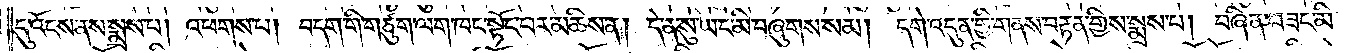དུ་འོངས་ནས་སྨྲས་པ། འཕགས་པ། བདག་གི་གཙུག་ལག་ཁང་སྟོང་པར་མཆིས་ན། དེ་ན་སུ་ཡང་མི་བཞུགས་སམ། དགེ་འདུན་གྱི་གནས་བརྟན་གྱིས་སྨྲས་པ། བཞིན་བཟང་མི་
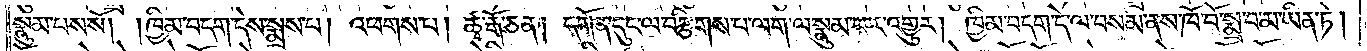སྣུམ་པས་སོ། །ཁྱིམ་བདག་དེས་སྨྲས་པ། འཕགས་པ། ཚྭ་རྒོ་ཅན། དགོན་དུང་ལ་བརྩིགས་པ་ལག་ལ་སྣུམ་པར་འགྱུར། ཁྱིམ་བདག་དེ་ལ་བསམ་ནས་ཁོ་བོ་སྨྲ་བ་མ་ཡིན་ཏེ།
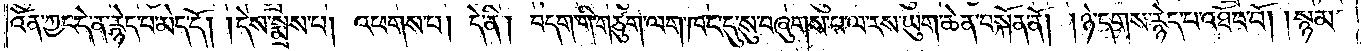འོན་ཀྱང་དེ་ན་རྙེད་པ་མེད་དོ། །དེས་སྨྲས་པ། འཕགས་པ། དེ་ནི། བདག་གི་གཙུག་ལག་ཁང་དུ་སུ་བཞུགས་པ་ལ་རས་ཡུག་ཆེན་བསྐོན་ནོ། །ཉེ་དགས་རྙེད་པ་འཐོབ་བོ། །སྙམ་
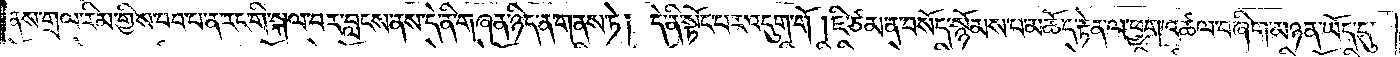ནས་གྲལ་རིམ་གྱིས་བབ་པ་ན་རང་གི་སྐལ་བར་བླངས་ནས་དེ་ནི་གཞན་ཉིད་ན་གནས་ཏེ། དེ་ནི་སྟོང་པར་འདུག་གོ། ཇི་ཙམ་ན་བསོད་སྙོམས་པ་མཆོད་རྟེན་ལ་ཕྱག་འཚལ་བ་ཞིག་མཉན་ཡོད་དུ་
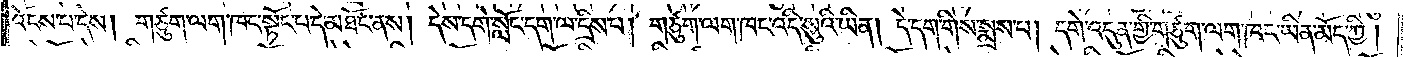འོངས་པ་དེས། གཙུག་ལག་ཁང་སྟོང་པ་དེ་མཐོང་ནས། དེས་དགེ་སློང་དག་ལ་དྲིས་པ། གཙུག་ལག་ཁང་འདི་སུའི་ཡིན། དེ་དག་གིས་སྨྲས་པ། དགེ་འདུན་གྱི་གཙུག་ལག་ཁང་ཡིན་མོད་ཀྱི།
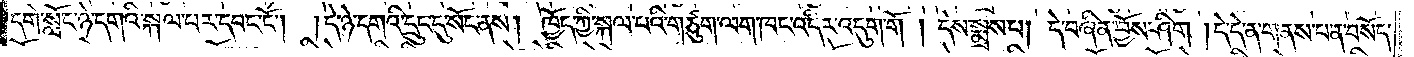དགེ་སློང་ཉེ་དགའི་སྐལ་པར་དབང་ངོ༌། །དེ་ཉེ་དགའི་དྲུང་དུ་སོང་ནས། ཁྱོད་ཀྱི་སྐལ་པའི་གཙུག་ལག་ཁང་འདིར་འདུག་གོ །དེས་སྨྲས་པ། དེ་བཞིན་བྱོས་ཤིག །དེ་དེ་ན་གནས་པ་ན་བསོད་
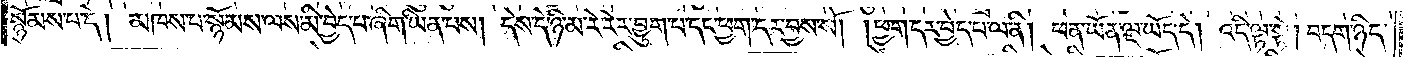སྙོམས་པ་དེ། མཁས་པ་སྙོམས་ལས་མི་བྱེད་པ་ཞིག་ཡིན་པས། དེས་དེ་ཉི་མ་རེ་རེར་བྱུག་པ་དང་ཕྱག་དར་བྱས་སོ། །ཕྱག་དར་བྱེད་པ་ལ་ནི། ཕན་ཡོན་ལྔ་ཡོད་དེ། འདི་ལྟ་སྟེ། བདག་ཉིད་
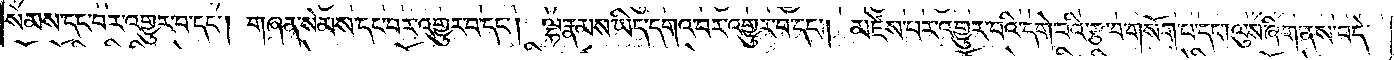སེམས་དང་བར་འགྱུར་བ་དང༌། གཞན་སེམས་དང་པར་འགྱུར་བ་དང༌། ལྷ་རྣམས་ཡིད་དགའ་བར་འགྱུར་བ་དང༌། མཛེས་པར་འགྱུར་བའི་དགེ་བའི་རྩ་བ་གསོག་པ་དང༌། ལུས་ཞིག་ནས་བདེ་
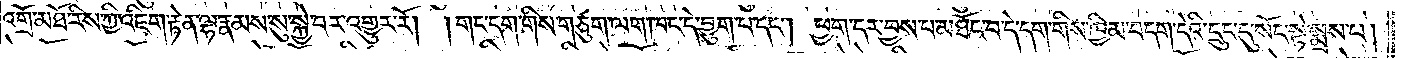འགྲོ་མཐོ་རིས་ཀྱི་འཇིག་རྟེན་ལྷ་རྣམས་སུ་སྐྱེ་བར་འགྱུར་རོ། །གང་དག་གིས་གཙུག་ལག་ཁང་དེ་བྱུག་པ་དང༌། ཕྱག་དར་བྱས་པ་མཐོང་བ་དེ་དག་གིས་ཁྱིམ་བདག་དེའི་དྲུང་དུ་སོང་སྟེ་སྨྲས་པ།
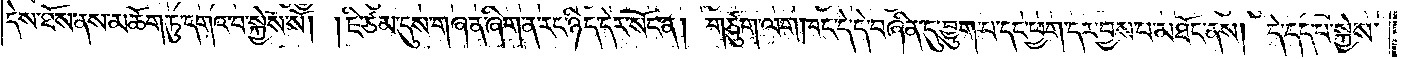དེས་ཐོས་ནས་མཆོག་ཏུ་དགའ་བ་སྐྱེས་སོ། །ཇི་ཙམ་དུས་གཞན་ཞིག་ན་རང་ཉིད་དེར་སོང་ན། གཙུག་ལག་ཁང་དེ་དེ་བཞིན་དུ་བྱུག་པ་དང་ཕྱག་དར་བྱས་པ་མཐོང་ནས། དེ་དད་པ་སྐྱེས་
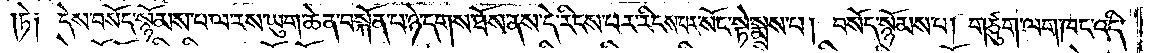།ཏེ༑ དེས་བསོད་སྙོམས་པ་ལ་རས་ཡུག་ཆེན་བསྐོན་པ་ཉེ་དགས་ཐོས་ནས་དེ་རིངས་པར་རིངས་པར་སོང་སྟེ་སྨྲས་པ། བསོད་སྙོམས་པ། གཙུག་ལག་ཁང་འདི་
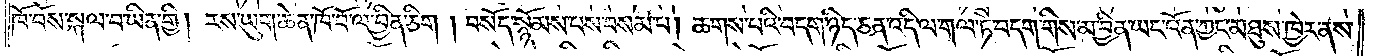ཁོ་བོས་སྐལ་བ་ཡིན་གྱི། རས་ཡུག་ཆེན་ཁོ་བོ་ལ་བྱིན་ཅིག །བསོད་སྙོམས་པས་བསམ་པ། ཆགས་པའི་བདག་ཉིད་ཅན་འདི་ལ་གལ་ཏེ་བདག་གིས་མ་བྱིན་ཡང་འོན་ཀྱང་མཐུས་ཁྱེར་ནས་
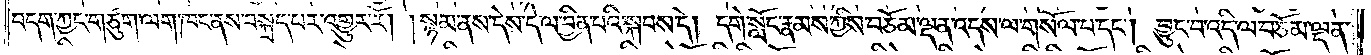བདག་ཀྱང་གཙུག་ལག་ཁང་ནས་བསྐྲད་པར་འགྱུར་རོ། །སྙམ་ནས་དེས་དེ་ལ་བྱིན་པའི་སྐབས་དེ། དགེ་སློང་རྣམས་ཀྱིས་བཅོམ་ལྡན་འདས་ལ་གསོལ་པ་དང༌། བྱུང་བ་འདི་ལ་བཅོམ་ལྡན་
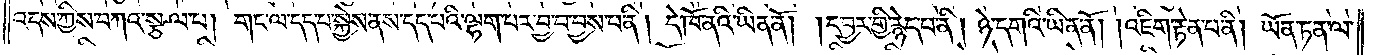འདས་ཀྱིས་བཀའ་སྩལ་པ། གང་ལ་དད་པ་སྐྱེས་ནས་དད་པའི་ལྷག་པར་བྱ་བ་བྱས་པ་ནི། དེ་ཁོ་ནའི་ཡིན་ནོ། །དབྱར་གྱི་རྙེད་པ་ནི། ཉེ་དགའི་ཡིན་ནོ། །འཇིག་རྟེན་པ་ནི། ཡོན་ཏན་ལ་
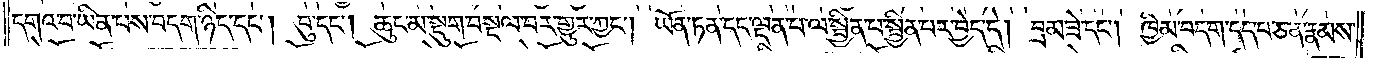དགའ་བ་ཡིན་པས་བདག་ཉིད་དང༌། བུ་དང༌། ཆུང་མ་སྡུག་བསྔལ་བར་གྱུར་ཀྱང༌། ཡོན་ཏན་དང་ལྡན་པ་ལ་སྦྱིན་པ་སྦྱིན་པར་བྱེད་དེ། བྲམ་ཟེ་དང༌། ཁྱིམ་བདག་དད་པ་ཅན་རྣམས་
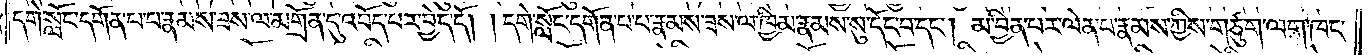དགེ་སློང་དགོན་པ་པ་རྣམས་ཟས་ལ་མགྲོན་དུ་འབོད་པར་བྱེད་དོ། །དགེ་སློང་དགོན་པ་པ་རྣམས་ཟས་ལ་ཁྱིམ་རྣམས་སུ་དོང་བ་དང༌། མ་བྱིན་པར་ལེན་པ་རྣམས་ཀྱིས་གཙུག་ལག་ཁང་
